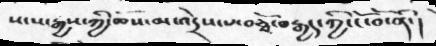སངས་རྒྱས་ཀྱི་ཆོས་མ་འདྲེས་པ་བཅྭོ་བརྒྱད་ཀྱི་ངོ་བོ་ནི་།
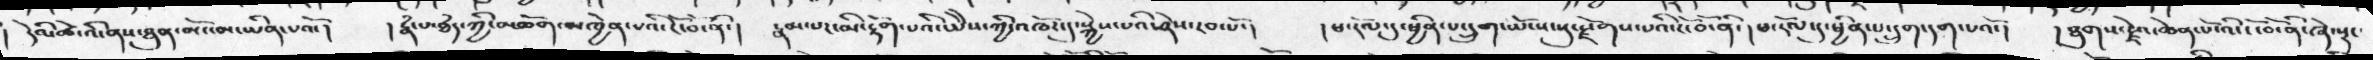དེའི་ཚེ་འི་ནས་ཐུན་མོང་མ་ཡིན་པའོ་།   ། རྣཾ་པ་ཐཾད་ཀྱི་མཆོག་མཁྱེན་པའི་ངོ་བོ་ནི་།  རྣམ་པར་མི་རྟོག་པའི་ཡེེས་ཀྱི་འཁོར་དུ་སྐྱེས་པའི་ཤེས་རབ་པོ་།  ། ཕ་རོལ་དུ་ཕྱིན་པ་དྲུག་ཡོངས་སུ་རྫོགས་པའི་ངོ་བོ་ནི་། ཕ་རོལ་དུ་ཕྱིན་པ་དྲུག་དག་པའོ་།  ། ཐུགས་རྗེའ་ཆེན་པོ་འི་ངོ་བོ་ནི་ཞེ་སྡང་
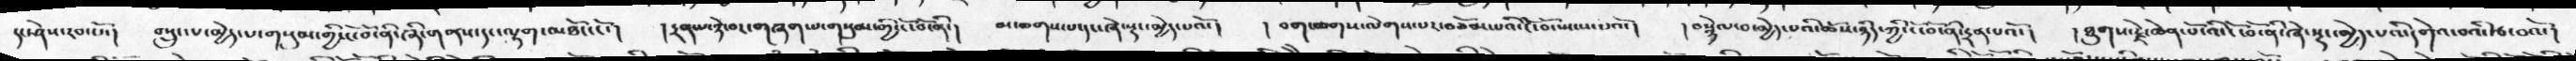དང་ཤེས་རབ་པོ།  བསྲུང་པ་མྱེད་པ་གསུམ་གྱི་ངོ་བོ་ནི་ཞི་གནས་དང་ལྷག་མཐོང་ངོ་།  ། དྲན་པ་ཉེ་བར་གཞག་པ་གསུམ་གྱི་ངོ་བོ་ནི་།  མ་ཆགས་པ་དང་ཞེ་སྡང་མྱེད་པའོ་།  ། བག་ཆགས་ལེགས་པར་བཅོམ་པའི་ངོ་བོ་སྤངས་པའོ་།  །བསྙེལ་བ་མྱེད་པའི་ཆོས་ཉིད་ཀྱི་ངོ་བོ་ནི་དྲན་པའོ་།  ། ཐུགས་རྗེ་ཆེན་པོ་འི་ངོ་བོ་ནི་ཞེ་སྡང་མྱེད་པ་མི་དགེའ་བའི་རྩ་བའོ་།
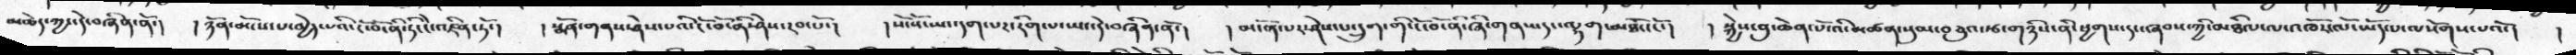མཆེད་ཀྱང་དེ་བཞིན་ནོ་།  ། ཉོན་མོངས་པ་མྱེད་པའི་ངོ་བོ་ནི་ཏི་ངེ་འཛིན་ཏོ་།   །སྨོན་གནས་ཤེས་པའི་ངོ་བོ་ནི་ཤེས་རབ་པོ་།  །སོ་སོ་ཡང་དག་པར་རིག་པ་ཡང་དེ་བཞིན་ནོ་།  ། མངོན་པར་ཤེས་པ་དྲུག་གི་ངོ་བོ་ནི་ཞི་གནས་དང་ལྷག་མཐོང་ངོ་།  ། སྐྱེས་བུ་ཆེན་པོ་འི་མཚན་སུམ་བཅུའ་རྩ་གཉིས་ནི་ཕྱགས་དང་ཞབས་ཀྱི་མཐིལ་ལ་འཁོར་ལོ་ཡོད་པ་ལསོགས་པའོ་།  །
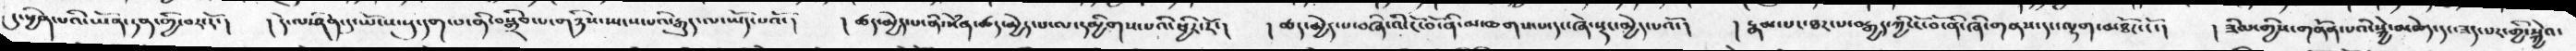དུ་ཕྱིན་པའི་ཡོན་ཏན་གྱི་བར་རོ་།   །དེ་ལ་ཤིན་དུ་ཡོངས་སུ་དག་པ་ནི་བསྒྲིབ་པ་གཉིས་སྤངས་པའི་རྒྱུད་ལ་ཡོད་པའོ་།  ། ཚད་མྱེད་པ་ནི་སེཾན་ཚད་མྱེད་པ་ལ་དམྱིགས་པའི་ཕྱིར་རོ་།  ། ཚད་མྱེད་པ་བཞི་འི་ངོ་བོ་ནི་མ་ཆགས་པ་དང་ཞེས་སྔར་མྱེད་པའོ་།  ། རྣམ་པར་ཐར་པ་བརྒྱད་ཀྱི་ངོ་བོ་ནི་ཞི་གནས་དང་ལྷག་མཐོང་ངོ་།  །ཟིལ་གྱིས་གནོན་པའི་སྐྱེ་མཆེད་དང་ཟད་པར་གྱི་སྐྱེའ་
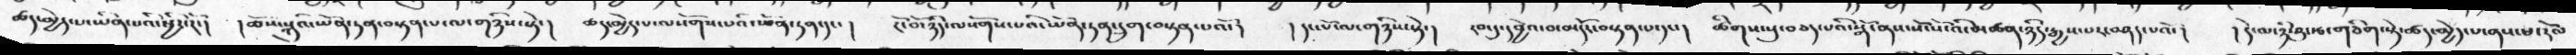ཚད་མྱེད་པ་ཡིན་པའི་ཕྱིར་རོ་།  །ཆོས་སྐུའི་ཡོན་ཏན་བསྟན་པ་ལ་གཉིས་སྟེ་།   ཚད་མྱེད་པ་ལསོགས་པའི་ཡོན་ཏན་དང་།  ངོ་བོ་ཉིད་ལསོགས་པའི་ཡོན་ཏན་དྲུག་བསྟན་པའོ་།  ། དང་པོ་ལ་གཉིས་སྟེ་།  རབ་ཏུ་དབྱེའ་བ་མདོར་བསྟན་པ་དང་།  ཚིགས་སུ་བཅད་པའི་སྒོ་ནས་སོ་སོ་འི་མཚན་ཉིད་རྒྱས་པར་བཤད་པའོ་།  ། དེ་ལ་ཉི་ཤུ་རྩ་གཅིག་སྟེ་ཚད་མྱེད་པ་ནས་ཕ་རོལ
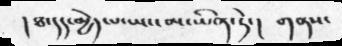།  ཐ་དད་མྱེད་པ་ཡང་མ་ཡིན་ཏེ་། གནས་
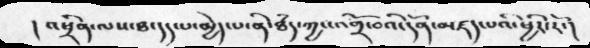། འཕྲིན་ལས་ཐ་དད་པ་མྱེད་པ་ནི་ཐཾད་ཀྱང་འགྲོ་བའི་དོན་མཛད་པའི་ཕྱིར་རོ་།
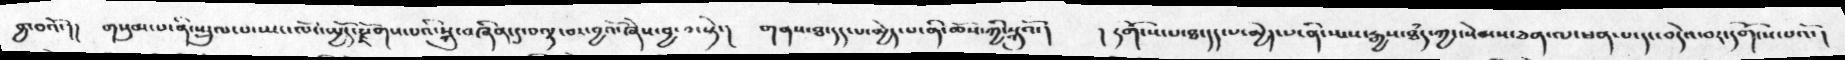བྱ་བའོ་།། གསུམ་པ་ནི་སྤྲུལ་པ་ཡང་ལོང་སྤྱོད་རྫོགས་པའི་སྐུ་བཞིན་དུ་བལྟ་བར་བྱའོ་ཞེས་བྱ་བ་སྟེ་།  གནས་ཐ་དད་པ་མྱེད་པ་ནི་ཆོས་ཀྱི་སྐུའོ་།  ། དགོངས་པ་ཐ་དད་པ་མྱེད་པ་ནི་སངས་རྒྱས་ཐཾད་ཀྱང་སེམས་ཅན་ལ་ཕན་པ་དང་བདེའ་བར་དགོངས་པའོ་།
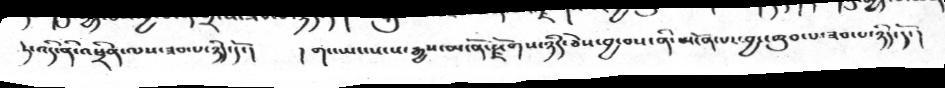ཏེ་འདི་ནི་འཕྲིན་ལས་ཟབ་པ་ཉིད་དོ་།  ། གང་ཡང་སངས་རྒྱས་མངོན་རྫོགས་ཉིད་ཅེས་བྱ་བས་ནི་མངོན་པར་བྱང་ཆུབ་པ་ཟབ་པ་ཉིད་དོ་།
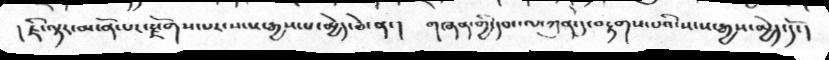། ཇི་ལྟར་མངོན་པར་རྫོགས་པར་སངས་རྒྱས་པ་མྱེད་ཅེ་ན་།  གཞན་གྱི་དབང་ལ་ཀུན་དུ་བརྟགས་པའི་སངས་རྒྱས་མྱེད་དོ་།
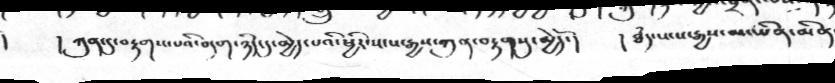།    ། ཀུན་དུ་བརྟགས་པའི་བདག་ཉིད་དུ་མྱེད་པའི་ཕྱིར་སངས་རྒྱས་ཀུན་བརྟགསུ་མྱེདོ་།     ། ཐཾད་སངས་རྒྱས་མ་ཡིན་མིན
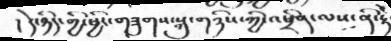།  དེ་ཉིད་གྱི་ཕྱིར་གཟུགས་སྐུ་གཉིས་ཀྱི་འཕྲིན་ལས་ནི་རྟེ
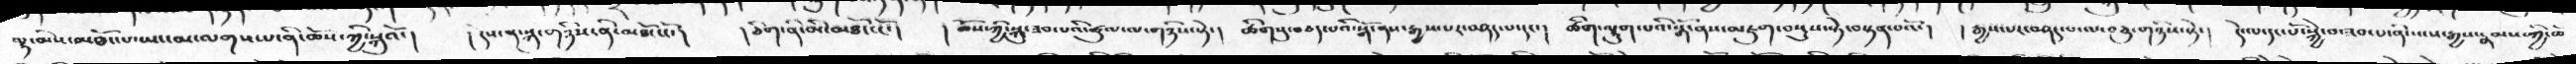ལྷ་མིས་མཐོང་པ་ཡང་མ་ལགས་པ་ནི་ཆོས་ཀྱི་སྐུའོ་།  ། དེས་ན་སྐུ་གཉིས་ནི་མཐོང་ངོ་།  ། ཅིག་ནི་མི་མཐོང་ངོ་།  ། ཆོས་ཀྱི་སྐུ་ཟབ་པའི་ཚུལ་ལ་གཉིས་སྟེ་།  ཚིགསུ་བཅད་པའི་སྒོ་ནས་རྒྱས་པར་བཤད་པ་དང་།  ཚིག་ལྷུག་པའི་སྒོ་ནས་མཇུག་བསྡུས་སྟེ་བསྟན་པའོ་།  ། རྒྱས་པར་བཤད་པ་ལ་བཅུ་གཉིས་སྟེ་།  དེ་ལ་དང་པོ་སྐྱེ་བ་ཟབ་པ་ནི་སངས་རྒྱས་རྣམས་ཀྱི་ཆེ
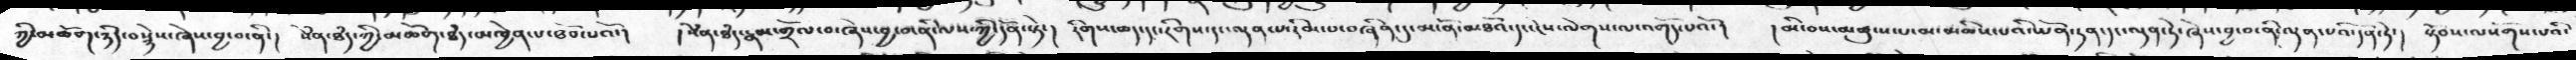ཀྱི་མཆོག་ཉིད་བསྙེས་ཞེས་བྱ་བ་ནི་།  སེཾན་ཐཾད་ཀྱི་མཆོག་ཐཾད་མཁྱེན་པ་ཐོབ་པའོ་།  ། སེཾན་ཐཾད་རྣམ་གྲོལ་བ་ཞེས་བྱ་བ་ནི་ལས་ཀྱི་དོན་སྟེ་།  རིགས་ཆད་དང་རིགས་དང་ལྡན་པ་རིམ་པ་བཞིན་དུ་མངོན་མཐོའ་དང་ངེས་ལེགས་ལ་འགོད་པའོ་།   ། མི་བས་མཚུངས་པ་མ་མཆིས་པའི་ཡོན་ཏན་དང་ལྡན་ཏེ་ཞེས་བྱ་བ་ནི་ལྡན་པའི་དོན་ཏེ་།  སྟོབས་ལསོགས་པའི་
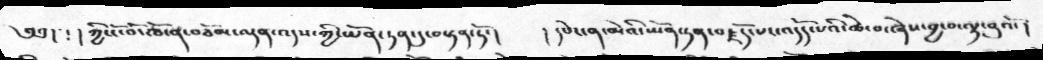༄༅། ༴ ། ཀྱི་ངོ་བོ་ཁོ་ན་བཅོམ་ལྡན་འདས་ཀྱི་ཡོན་ཏན་དུ་བསྟན་ཏོ་།  ། དཔེར་ན་མེའི་ཡོན་ཏན་བརྗོད་པར་འདོད་པའི་ཆེ་བ་ཞེས་བྱ་བ་ལྟ་བུའོ་།
